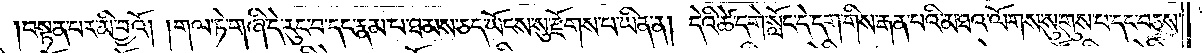བསྟན་པར་མི་བྱའོ། །གལ་ཏེ་གཞི་དེ་རུང་བ་དང་རྣམ་པ་ཐམས་ཅད་ཡོངས་སུ་རྫོགས་པ་ཡིན་ན། དེའི་ཚེ་དགེ་སློང་དེ་དག་གིས་རྒན་པའི་མཐའ་ལོགས་སུ་གུས་པ་དང་བཅས་
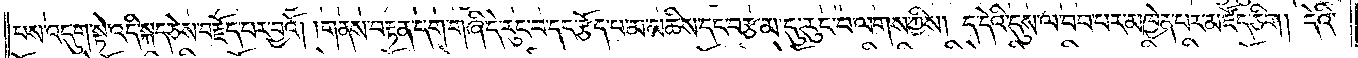པས་འདུག་སྟེ་འདི་སྐད་ཅེས་བརྗོད་པར་བྱའོ། །གནས་བརྟན་དག་གཞི་དེ་རུང་བ་དང་རྩོད་པ་མ་མཆིས་དང་བརྩམ་དུ་རུང་བ་ལགས་ཀྱིས། ད་དེའི་དུས་ལ་བབ་པར་མཁྱེན་པར་མཛོད་ཅིག། དེའི་
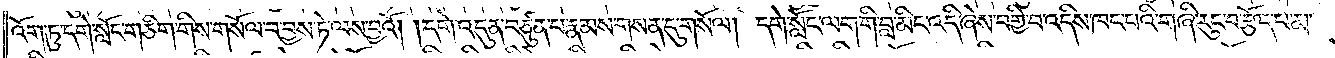འོག་ཏུ་དགེ་སློང་གཅིག་གིས་གསོལ་བ་བྱས་ཏེ་ལས་བྱའོ། །དགེ་འདུན་བཙུན་པ་རྣམས་གསན་དུ་གསོལ། དགེ་སློང་ལག་གི་བླ་མིང་འདི་ཞེས་བགྱི་བ་འདིས་ཁང་པའི་གཞི་རུང་བ་རྩོད་པ་མ་
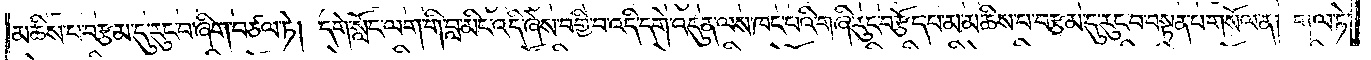མཆིས་པ་བརྩམ་དུ་རུང་བ་ཞིག་བཙལ་ཏེ། དགེ་སློང་ལག་གི་བླ་མིང་འདི་ཞེས་བགྱི་བ་འདི་དགེ་འདུན་ལས་ཁང་པའི་གཞི་རུང་བ་རྩོད་པ་མ་མཆིས་པ་བརྩམ་དུ་རུང་བ་བསྟན་པ་གསོལ་ན། གལ་ཏེ་
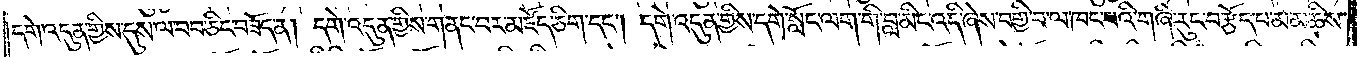དགེ་འདུན་གྱིས་དུས་ལ་བབ་ཅིང་བཟོད་ན། དགེ་འདུན་གྱིས་གནང་བར་མཛོད་ཅིག་དང༌། དགེ་འདུན་གྱིས་དགེ་སློང་ལག་གི་བླ་མིང་འདི་ཞེས་བགྱི་བ་ལ་ཁང་པའི་གཞི་རུང་བ་རྩོད་པ་མ་མཆིས་
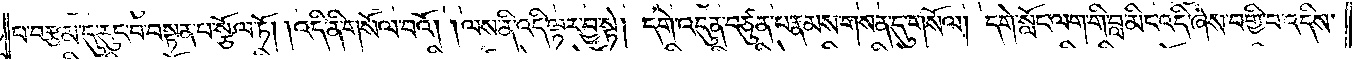བ་བརྩམ་དུ་རུང་བ་བསྟན་པ་སྩོལ་ཏོ། །འདི་ནི་གསོལ་བའོ། །ལས་ནི་འདི་ལྟར་བྱ་སྟེ། དགེ་འདུན་བཙུན་པ་རྣམས་གསན་དུ་གསོལ། དགེ་སློང་ལག་གི་བླ་མིང་འདི་ཞེས་བགྱི་བ་འདིས་
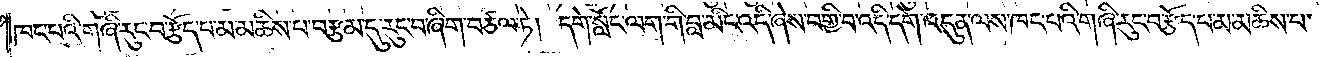ཁང་པའི་གཞི་རུང་བ་རྩོད་པ་མ་མཆིས་པ་བརྩམ་དུ་རུང་བ་ཞིག་བཙལ་ཏེ། དགེ་སློང་ལག་གི་བླ་མིང་འདི་ཞེས་བགྱི་བ་འདི་དགེ་འདུན་ལས་ཁང་པའི་གཞི་རུང་བ་རྩོད་པ་མ་མཆིས་པ་
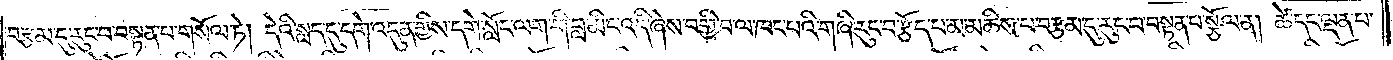བརྩམ་དུ་རུང་བ་བསྟན་པ་གསོལ་ཏེ། དེའི་སླད་དུ་དགེ་འདུན་གྱིས་དགེ་སློང་ལག་གི་བླ་མིང་འདི་ཞེས་བགྱི་བ་ལ་ཁང་པའི་གཞི་རུང་བ་རྩོད་པ་མ་མཆིས་པ་བརྩམ་དུ་རུང་བ་བསྟན་པ་སྩོལ་ན། ཚེ་དང་ལྡན་པ་
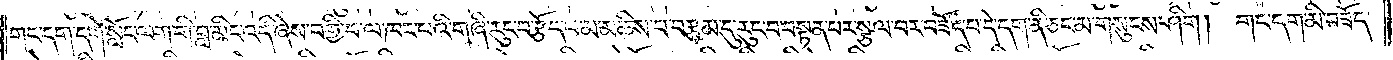གང་དག་དགེ་སློང་ལག་གི་བླ་མིང་འདི་ཞེས་བགྱི་བ་ལ་ཁང་པའི་གཞི་རུང་བ་རྩོད་པ་མ་མཆིས་པ་བརྩམ་དུ་རུང་བ་བསྟན་པར་སྩལ་བར་བཟོད་པ་དེ་དག་ནི་ཅང་མ་གསུངས་ཤིག། གང་དག་མི་བཟོད་
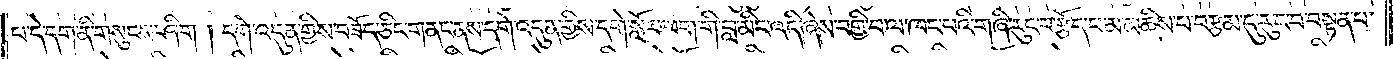པ་དེ་དག་ནི་གསུངས་ཤིག །དགེ་འདུན་གྱིས་བཟོད་ཅིང་གནང་ནས་དགེ་འདུན་གྱིས་དགེ་སློང་ལག་གི་བླ་མིང་འདི་ཞེས་བགྱི་བ་ལ་ཁང་པའི་གཞི་རུང་བ་རྩོད་པ་མ་མཆིས་པ་བརྩམ་དུ་རུང་བ་བསྟན་པ་
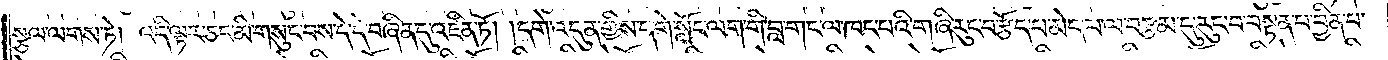སྩལ་ལགས་ཏེ། འདི་ལྟར་ཅང་མི་གསུང་བས་དེ་དེ་བཞིན་དུ་འཛིན་ཏོ། །དགེ་འདུན་གྱིས་དགེ་སློང་ལག་གི་བླ་གང་ལ་ཁང་པའི་གཞི་རུང་བ་རྩོད་པ་མེད་པ་ལ་བརྩམ་དུ་རུང་བ་བསྟན་པ་བྱིན་པ་
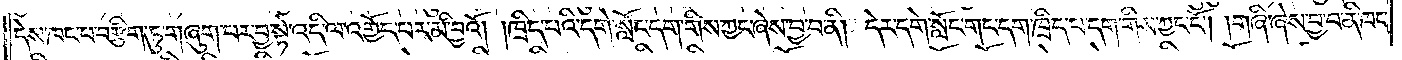དེས་ཁང་པ་བརྩིག་ཏུ་གཞུག་པར་བྱ་སྟེ་འདི་ལ་འགྱོད་པར་མི་བྱའོ། །ཁྲིད་པའི་དགེ་སློང་དག་གིས་ཀྱང་ཞེས་བྱ་བ་ནི། དེར་དགེ་སློང་གང་དག་ཁྲིད་པ་དག་གིས་ཀྱང་ངོ༌། །གཞི་ཞེས་བྱ་བ་ནི་ཁང་
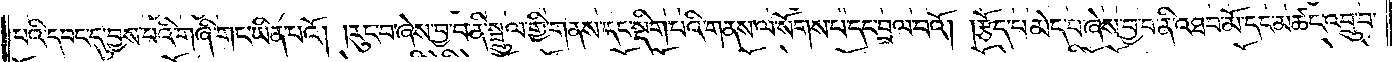པའི་དབང་དུ་བྱས་པའི་གཞི་གང་ཡིན་པའོ། །རུང་བ་ཞེས་བྱ་བ་ནི་སྦྲུལ་གྱི་གནས་དང་སྡིག་པའི་གནས་ལ་སོགས་པ་དང་བྲལ་བའོ། །རྩོད་པ་མེད་པ་ཞེས་བྱ་བ་ནི་འཐབ་མོ་དང་མཚང་འབྲུ་བ་
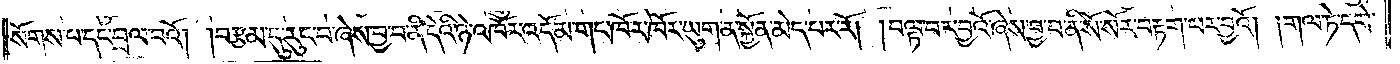སོགས་པ་དང་བྲལ་བའོ། །བརྩམ་དུ་རུང་བ་ཞེས་བྱ་བ་ནི་དེའི་ཉེ་འཁོར་འདོམ་གང་ཁོ་ར་ཁོར་ཡུག་ན་སྐྱོན་མེད་པར་རོ། །བལྟ་བར་བྱའོ་ཞེས་བྱ་བ་ནི་སོ་སོར་བརྟག་པར་བྱའོ། །གལ་ཏེ་དགེ་
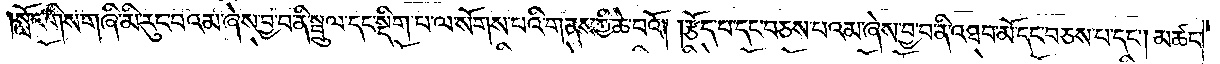སློང་གིས་གཞི་མི་རུང་བའམ་ཞེས་བྱ་བ་ནི་སྦྲུལ་དང་སྡིག་པ་ལ་སོགས་པའི་གནས་ཀྱི་ཆེ་བའོ། །རྩོད་པ་དང་བཅས་པའམ་ཞེས་བྱ་བ་ནི་འཐབ་མོ་དང་བཅས་པ་དང༌། མཚང་
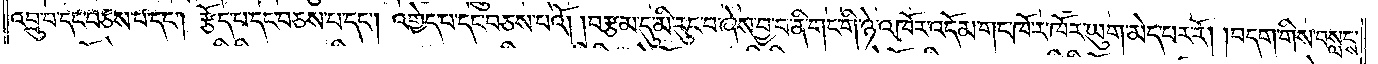འབྲུ་བ་དང་བཅས་པ་དང༌། རྩོད་པ་དང་བཅས་པ་དང༌། འགྱེད་པ་དང་བཅས་པའོ། །བརྩམ་དུ་མི་རུང་བ་ཞེས་བྱ་བ་ནི་གང་གི་ཉེ་འཁོར་འདོམ་གང་ཁོ་ར་ཁོར་ཡུག་མེད་པར་རོ། །བདག་གིས་བསླངས་
